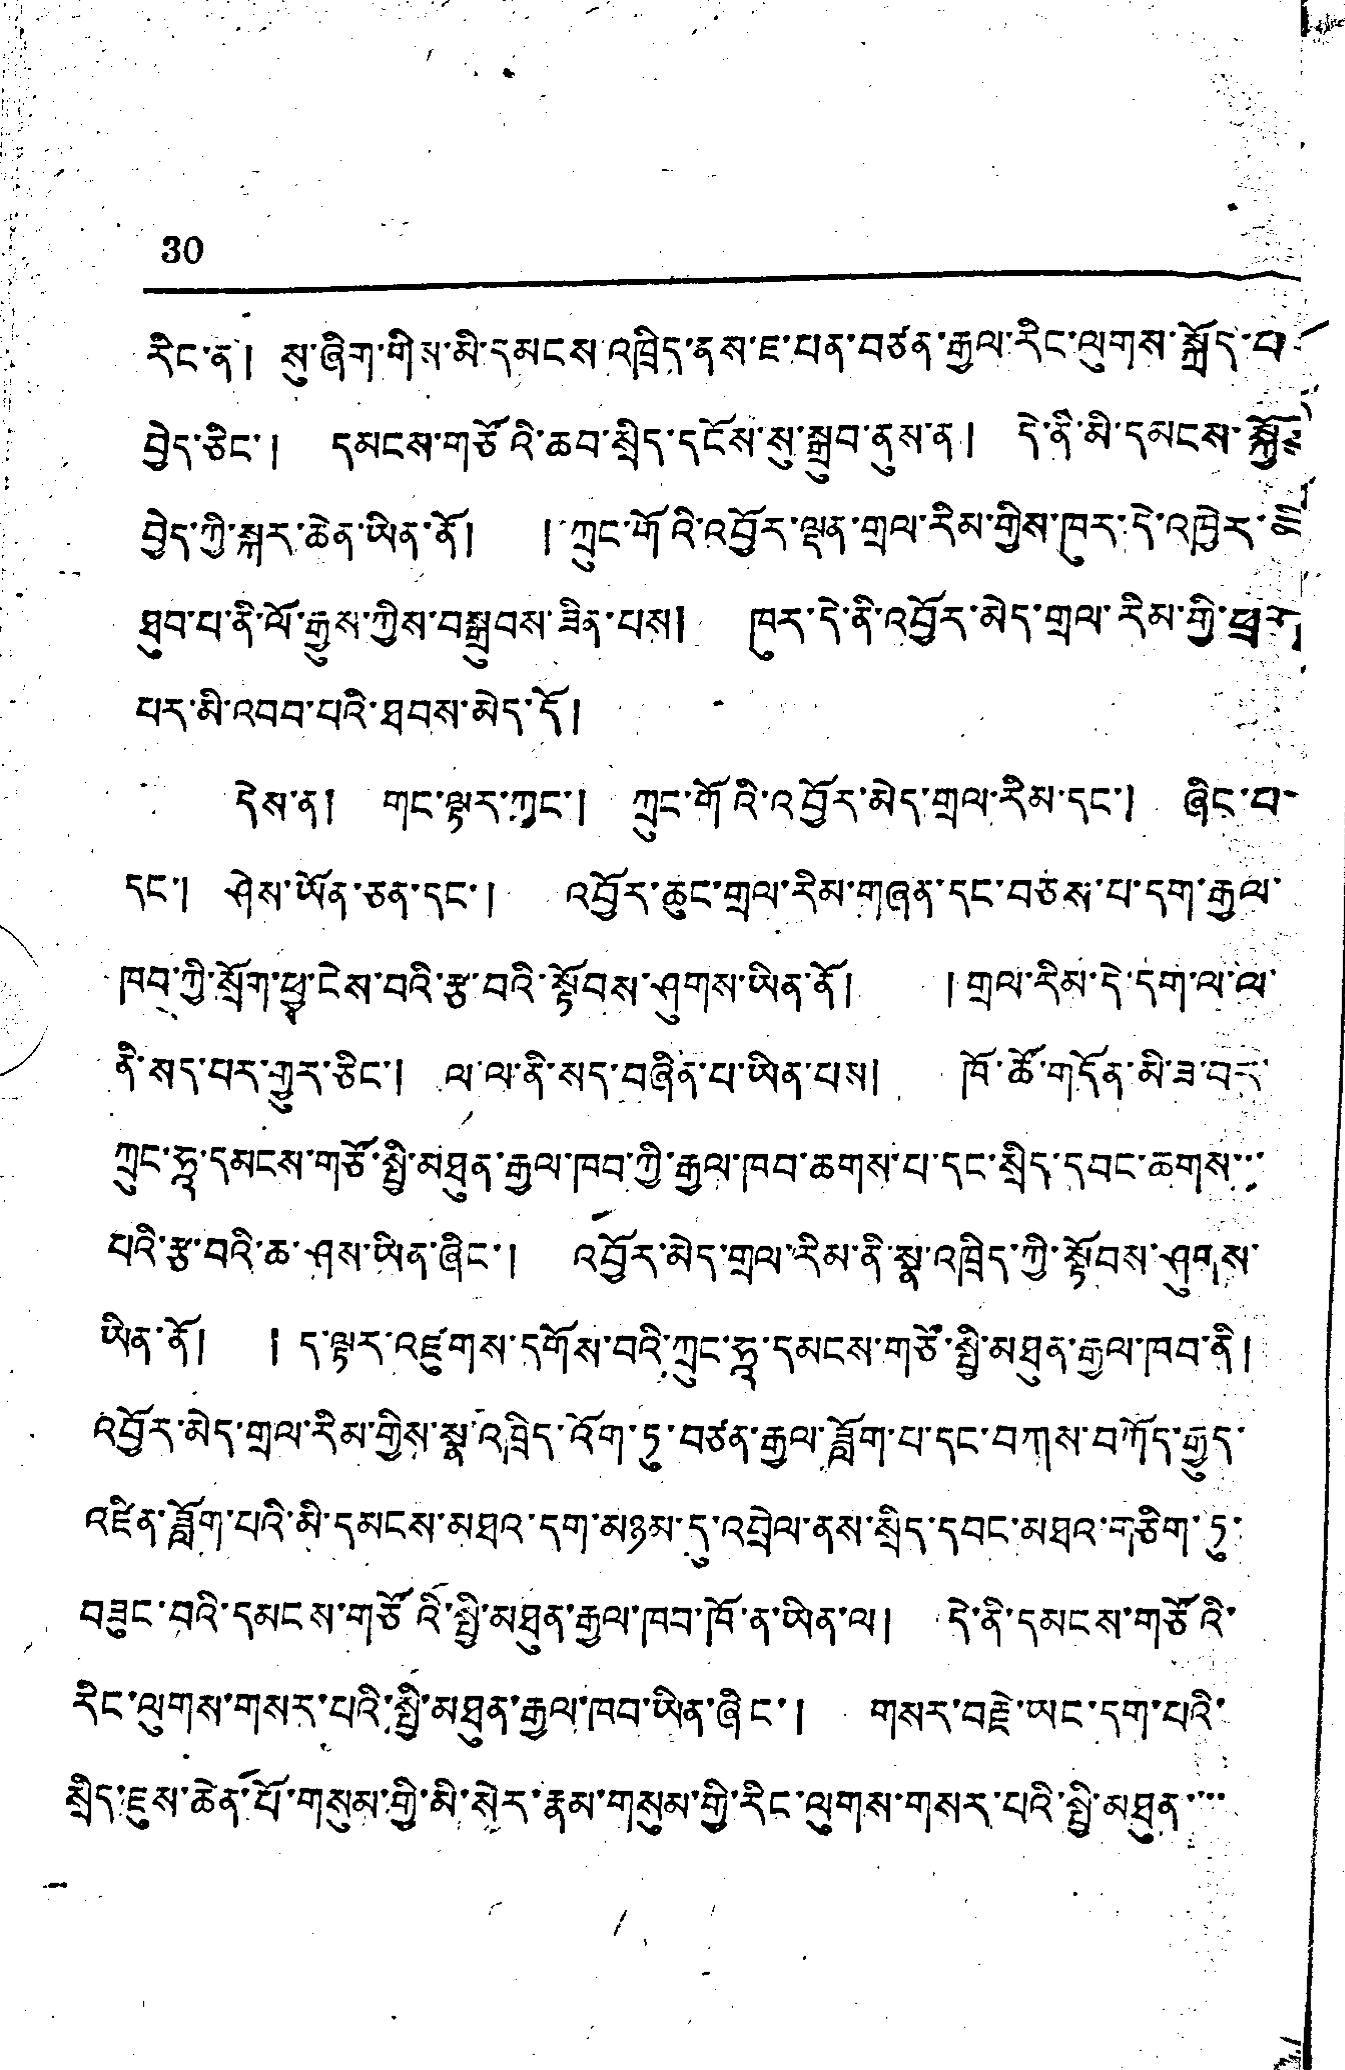30
རིང་ན། སུ་ཞིག་གིས་མི་དམངས་འཁྲིད་ནས་ཇ་པན་བཙན་རྒྱལ་རིང་ལུགས་སྐྱོད་པ་
བྱེད་ཅིང་། དམངས་གཙོའི་ཆབ་སྲིད་དངོས་སུ་སྒྲུབ་ནས་ན། དེ་ནི་མི་དམངས་སྐྱོན་
བྱེད་ཀྱི་སྐར་ཆེན་ཡིན་ནོ། ། ཀྲུང་གོའི་འབྱོར་ལྡན་གྲལ་རིམ་གྱིས་ཁུར་དེ་འཁྱེར་མི
ཐུབ་པ་ནི་ལོ་རྒྱུས་ཀྱིས་བསྒྲུབས་ཟིན་པས། ཁུར་དེ་ནི་འབྱོར་མེད་གྲལ་རིམ་གྱི་ཕྲན་
པར་མི་འབབ་པའི་ཐབས་མེད་དོ།
དེས་ན། གང་ལྟར་ཀྱང་། ཀྲུང་གོའི་འབྱོར་མེད་གྲལ་རིམ་དང་། ཞིང་བ་
དང་། ཤེས་ཡོན་ཅན་དང་། འབྱོར་ཆུང་གྲལ་རིམ་གཞན་དང་བཅས་པ་དག་རྒྱལ་
ཁབ་ཀྱི་སྲོག་ཕྱ་ངེས་བའི་རྩ་བའི་སྟོབས་ཤུགས་ཡིན་ནོ། །གྲལ་རིམ་དེ་དག་ལ་ལ་
ནི་སད་པར་གྱུར་ཅིང་། ལ་ལ་ནི་སད་བཞིན་པ་ཡིན་པས། ཁོ་ཚོ་གདོན་མི་ཟ་བར་
ཀྲུང་ཧཱ་དམངས་གཙོ་སྤྱི་མཐུན་རྒྱལ་ཁབ་ཀྱི་རྒྱལ་ཁབ་ཆགས་པ་དང་སྲིད་དབང་ཆགས་་་
པའི་རྩ་བའི་ཆ་ཤས་ཡིན་ཞིང་། འབྱོར་མེད་གྲལ་རིམ་ནི་སྣ་འཁྲིད་ཀྱི་སྟོབས་ཤུགས་
ཡིན་ནོ། ། ད་ལྟར་འཛུགས་དགོས་བའི་ཀྲུང་ཧཱ་དམངས་གཙོ་སྤྱི་མཐུན་རྒྱལ་ཁབ་ནི།
འབྱོར་མེད་གྲལ་རིམ་གྱིས་སྣ་འཁྲིད་འོག་ཏུ་བཙན་རྒྱལ་ཟློག་པ་དང་བཀས་བཀོད་རྒྱུད་
འཛིན་ཟློག་པའི་མི་དམངས་མཐའ་དག་མཉམ་དུ་འབྲེལ་ནས་སྲིད་དབང་མཐའ་གཅིག་ཏུ་
བཟུང་བའི་དམངས་གཙོའི་སྤྱི་མཐུན་རྒྱལ་ཁབ་ཁོ་ན་ཡིན་ལ། དེ་ནི་དམངས་གཙོའི་
རིང་ལུགས་གསར་པའི་སྤྱི་མཐུན་རྒྱལ་ཁབ་ཡིན་ཞིང་། གསར་བརྗེ་ཡང་དག་པའི་
སྲིད་ཇུས་ཆེན་པོ་གསུམ་གྱི་མི་སེར་རྣམ་གསུམ་གྱི་རིང་ལུགས་གསར་པའི་སྤྱི་མཐུན་་་་
